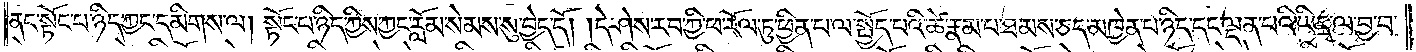ནང་སྟོང་པ་ཉིད་ཀྱང་དམིགས་ལ། སྟོང་པ་ཉིད་ཀྱིས་ཀྱང་རློམ་སེམས་སུ་བྱེད་དོ། །དེ་ཤེས་རབ་ཀྱི་ཕ་རོལ་ཏུ་ཕྱིན་པ་ལ་སྤྱོད་པའི་ཚེ་རྣམ་པ་ཐམས་ཅད་མཁྱེན་པ་ཉིད་དང་ལྡན་པའི་ཡིད་ལ་བྱ་བ་
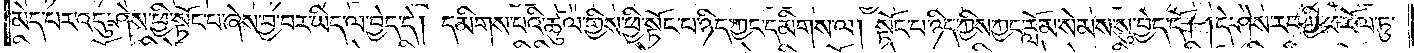མེད་པར་འདུ་ཤེས་ཕྱི་སྟོང་པ་ཞེས་བྱ་བར་ཡིད་ལ་བྱེད་དེ། དམིགས་པའི་ཚུལ་གྱིས་ཕྱི་སྟོང་པ་ཉིད་ཀྱང་དམིགས་ལ། སྟོང་པ་ཉིད་ཀྱིས་ཀྱང་རློམ་སེམས་སུ་བྱེད་དོ། །དེ་ཤེས་རབ་ཀྱི་ཕ་རོལ་ཏུ་
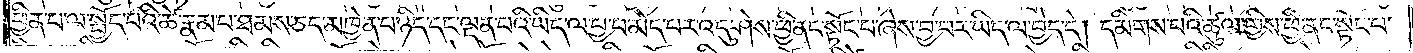ཕྱིན་པ་ལ་སྤྱོད་པའི་ཚེ་རྣམ་པ་ཐམས་ཅད་མཁྱེན་པ་ཉིད་དང་ལྡན་པའི་ཡིད་ལ་བྱ་བ་མེད་པར་འདུ་ཤེས་ཕྱི་ནང་སྟོང་པ་ཞེས་བྱ་བར་ཡིད་ལ་བྱེད་དེ། དམིགས་པའི་ཚུལ་གྱིས་ཕྱི་ནང་སྟོང་པ་
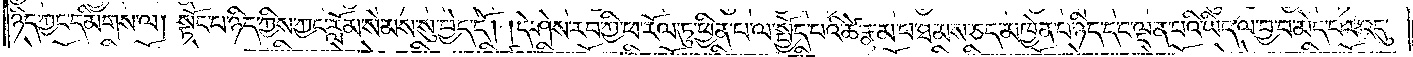ཉིད་ཀྱང་དམིགས་ལ། སྟོང་པ་ཉིད་ཀྱིས་ཀྱང་རློམ་སེམས་སུ་བྱེད་དོ། །དེ་ཤེས་རབ་ཀྱི་ཕ་རོལ་ཏུ་ཕྱིན་པ་ལ་སྤྱོད་པའི་ཚེ་རྣམ་པ་ཐམས་ཅད་མཁྱེན་པ་ཉིད་དང་ལྡན་པའི་ཡིད་ལ་བྱ་བ་མེད་པར་འདུ་
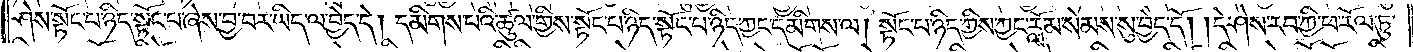ཤེས་སྟོང་པ་ཉིད་སྟོང་པ་ཞེས་བྱ་བར་ཡིད་ལ་བྱེད་དེ། དམིགས་པའི་ཚུལ་གྱིས་སྟོང་པ་ཉིད་སྟོང་པ་ཉིད་ཀྱང་དམིགས་ལ། སྟོང་པ་ཉིད་ཀྱིས་ཀྱང་རློམ་སེམས་སུ་བྱེད་དོ། །དེ་ཤེས་རབ་ཀྱི་ཕ་རོལ་ཏུ་
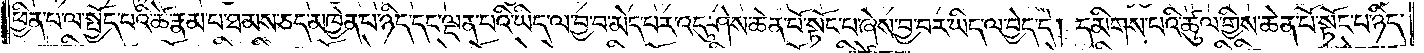ཕྱིན་པ་ལ་སྤྱོད་པའི་ཚེ་རྣམ་པ་ཐམས་ཅད་མཁྱེན་པ་ཉིད་དང་ལྡན་པའི་ཡིད་ལ་བྱ་བ་མེད་པར་འདུ་ཤེས་ཆེན་པོ་སྟོང་པ་ཞེས་བྱ་བར་ཡིད་ལ་བྱེད་དེ། དམིགས་པའི་ཚུལ་གྱིས་ཆེན་པོ་སྟོང་པ་ཉིད་
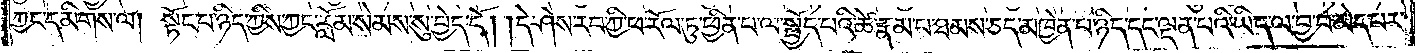ཀྱང་དམིགས་ལ། སྟོང་པ་ཉིད་ཀྱིས་ཀྱང་རློམ་སེམས་སུ་བྱེད་དོ། །དེ་ཤེས་རབ་ཀྱི་ཕ་རོལ་ཏུ་ཕྱིན་པ་ལ་སྤྱོད་པའི་ཚེ་རྣམ་པ་ཐམས་ཅད་མཁྱེན་པ་ཉིད་དང་ལྡན་པའི་ཡིད་ལ་བྱ་བ་མེད་པར་
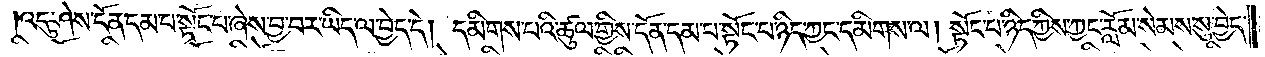འདུ་ཤེས་དོན་དམ་པ་སྟོང་པ་ཞེས་བྱ་བར་ཡིད་ལ་བྱེད་དེ། དམིགས་པའི་ཚུལ་གྱིས་དོན་དམ་པ་སྟོང་པ་ཉིད་ཀྱང་དམིགས་ལ། སྟོང་པ་ཉིད་ཀྱིས་ཀྱང་རློམ་སེམས་སུ་བྱེད་
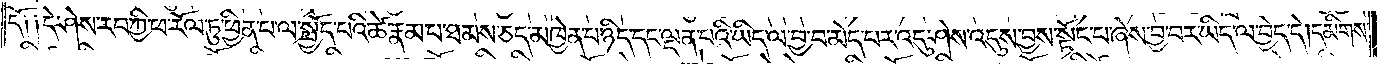དོ༑ ༑དེ་ཤེས་རབ་ཀྱི་ཕ་རོལ་ཏུ་ཕྱིན་པ་ལ་སྤྱོད་པའི་ཚེ་རྣམ་པ་ཐམས་ཅད་མཁྱེན་པ་ཉིད་དང་ལྡན་པའི་ཡིད་ལ་བྱ་བ་མེད་པར་འདུས་ཤེས་འདུས་བྱས་སྟོང་པ་ཞེས་བྱ་བར་ཡིད་ལ་བྱེད་དེ། དམིགས་
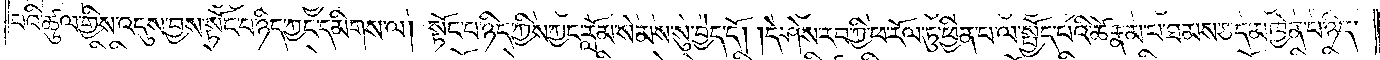པའི་ཚུལ་གྱིས་འདུས་བྱས་སྟོང་པ་ཉིད་ཀྱང་དམིགས་ལ། སྟོང་པ་ཉིད་ཀྱིས་ཀྱང་རློམ་སེམས་སུ་བྱེད་དོ། །དེ་ཤེས་རབ་ཀྱི་ཕ་རོལ་ཏུ་ཕྱིན་པ་ལ་སྤྱོད་པའི་ཚེ་རྣམ་པ་ཐམས་ཅད་མཁྱེན་པ་ཉིད་
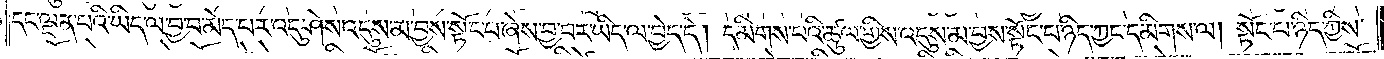དང་ལྡན་པའི་ཡིད་ལ་བྱ་བ་མེད་པར་འདུ་ཤེས་འདུས་མ་བྱས་སྟོང་པ་ཞེས་བྱ་བར་ཡིད་ལ་བྱེད་དེ། དམིགས་པའི་ཚུལ་གྱིས་འདུས་མ་བྱས་སྟོང་པ་ཉིད་ཀྱང་དམིགས་ལ། སྟོང་པ་ཉིད་ཀྱིས་
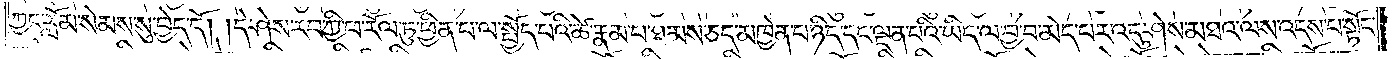ཀྱང་རློམ་སེམས་སུ་བྱེད་དོ། །དེ་ཤེས་རབ་ཀྱི་ཕ་རོལ་ཏུ་ཕྱིན་པ་ལ་སྤྱོད་པའི་ཚེ་རྣམ་པ་ཐམས་ཅད་མཁྱེན་པ་ཉིད་དང་ལྡན་པའི་ཡིད་ལ་བྱ་བ་མེད་པར་འདུ་ཤེས་མཐའ་ལས་འདས་པ་སྟོང་
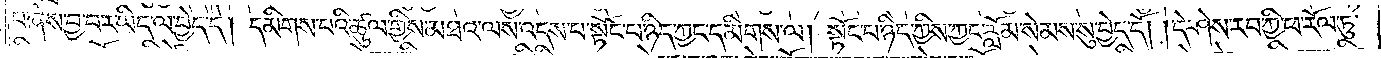པ་ཞེས་བྱ་བར་ཡིད་ལ་བྱེད་དེ། དམིགས་པའི་ཚུལ་གྱིས་མཐའ་ལས་འདས་པ་སྟོང་པ་ཉིད་ཀྱང་དམིགས་ལ། སྟོང་པ་ཉིད་ཀྱིས་ཀྱང་རློམ་སེམས་སུ་བྱེད་དོ། །དེ་ཤེས་རབ་ཀྱི་ཕ་རོལ་ཏུ་
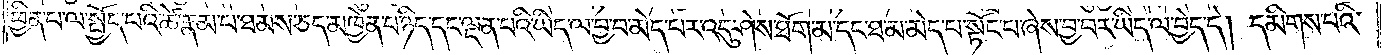ཕྱིན་པ་ལ་སྤྱོད་པའི་ཚེ་རྣམ་པ་ཐམས་ཅད་མཁྱེན་པ་ཉིད་དང་ལྡན་པའི་ཡིད་ལ་བྱ་བ་མེད་པར་འདུ་ཤེས་ཐོག་མ་དང་ཐ་མ་མེད་པ་སྟོང་པ་ཞེས་བྱ་བར་ཡིད་ལ་བྱེད་དེ། དམིགས་པའི་
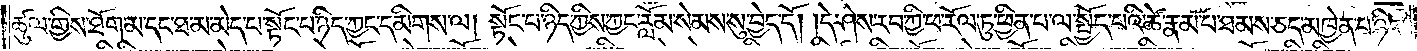ཚུལ་གྱིས་ཐོག་མ་དང་ཐ་མ་མེད་པ་སྟོང་པ་ཉིད་ཀྱང་དམིགས་ལ།སྟོང་པ་ཉིད་ཀྱིས་ཀྱང་རློམ་སེམས་སུ་བྱེད་དོ། །དེ་ཤེས་རབ་ཀྱི་ཕ་རོལ་ཏུ་ཕྱིན་པ་ལ་སྤྱོད་པའི་ཚེ་རྣམ་པ་ཐམས་ཅད་མཁྱེན་པ་ཉིད་
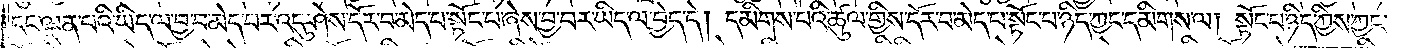དང་ལྡན་པའི་ཡིད་ལ་བྱ་བ་མེད་པར་འདུ་ཤེས་དོར་བ་མེད་པ་སྟོང་པ་ཞེས་བྱ་བར་ཡིད་ལ་བྱེད་དེ། དམིགས་པའི་ཚུལ་གྱིས་དོར་བ་མེད་པ་སྟོང་པ་ཉིད་ཀྱང་དམིགས་ལ། སྟོང་པ་ཉིད་ཀྱིས་ཀྱང་
